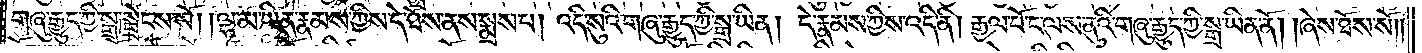གཞུ་རྒྱུད་ཀྱི་སྒྲ་སྦྲེངས་སོ། །ལྷ་མ་ཡིན་རྣམས་ཀྱིས་དེ་ཐོས་ནས་སྨྲས་པ། འདི་སུའི་གཞུ་རྒྱུད་ཀྱི་སྒྲ་ཡིན། དེ་རྣམས་ཀྱིས་འདི་ནི། རྒྱལ་པོ་ང་ལས་ནུའི་གཞུ་རྒྱུད་ཀྱི་སྒྲ་ཡིན་ནོ། །ཞེས་ཐོས་སོ། །
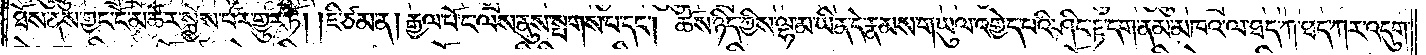ཐོས་ནས་ཀྱང་ངོ་མཚར་སྐྱེས་པར་གྱུར་ཏོ། །ཇི་ཙམ་ན། རྒྱལ་པོ་ང་ལས་ནུས་སྤགས་པ་དང༌། ཆོས་ཉིད་ཀྱིས་ལྷ་མ་ཡིན་དེ་རྣམས་གཡུལ་འགྱེད་པའི་ཤིང་རྟ་དག་ནམ་མཁའ་ལ་ཐད་ཀ་ཐད་ཀར་འདུག་
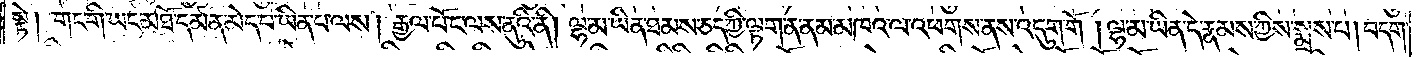སྟེ། གང་གི་ཡང་མཐོ་དམན་མེད་པ་ཡིན་པ་ལས། རྒྱལ་པོ་ང་ལས་ནུའི་ནི། ལྷ་མ་ཡིན་ཐམས་ཅད་ཀྱི་ལྟག་ན་ནམ་མཁའ་ལ་འཕགས་ནས་འདུག་གོ །ལྷ་མ་ཡིན་དེ་རྣམས་ཀྱིས་སྨྲས་པ། བདག་
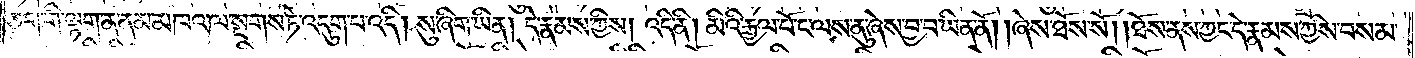ཅག་གི་ལྟག་ན་ནམ་མཁའ་ལ་སྤགས་ཏེ་འདུག་པ་འདི། སུ་ཞིག་ཡིན། དེ་རྣམས་ཀྱིས། འདི་ནི། མིའི་རྒྱལ་པོ་ང་ལས་ནུ་ཞེས་བྱ་བ་ཡིན་ནོ། །ཞེས་ཐོས་སོ། །ཐོས་ནས་ཀྱང་དེ་རྣམས་ཀྱིས་བསམ་
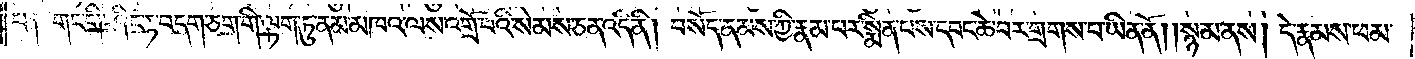པ། གང་གི་ཤིང་རྟ་བདག་ཅག་གི་ལྟག་ཏུ་ནམ་མཁའ་ལས་འགྲོ་བའི་སེམས་ཅན་འདི་ནི། བསོད་ནམས་ཀྱི་རྣམ་པར་སྨིན་པས་དབང་ཆེ་བར་གྲགས་པ་ཡིན་ནོ། །སྙམ་ནས། དེ་རྣམས་ཕམ་
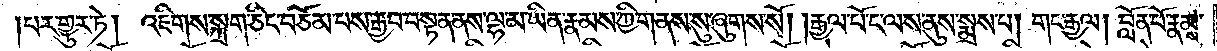པར་གྱུར་ཏེ། འཇིགས་སྐྲག་ཅིང་བཅོམ་པས་རྒྱབ་བསྟན་ནས་ལྷ་མ་ཡིན་རྣམས་ཀྱི་གནས་སུ་ཞུགས་སོ། །རྒྱལ་པོ་ང་ལས་ནུས་སྨྲས་པ། གང་རྒྱལ། བློན་པོ་རྣམས་
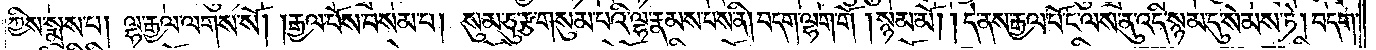ཀྱིས་སྨྲས་པ། ལྷ་རྒྱལ་ལགས་སོ། །རྒྱལ་པོས་བསམ་པ། སུམ་ཅུ་རྩ་གསུམ་པའི་ལྷ་རྣམས་པས་ནི། བདག་ལྷག་གོ །སྙམ་མོ། །དེ་ནས་རྒྱལ་པོ་ང་ལས་ནུ་འདི་སྙམ་དུ་སེམས་ཏེ། བདག་
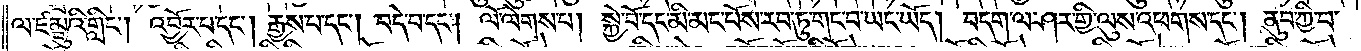ལ་ཛམྦུའི་གླིང༌། འབྱོར་པ་དང༌། རྒྱས་པ་དང༌། བདེ་བ་དང༌། ལོ་ལེགས་པ། སྐྱེ་བོ་དང་མི་མང་པོས་རབ་ཏུ་གང་བ་ཡང་ཡོད། བདག་ལ་ཤར་གྱི་ལུས་འཕགས་དང༌། ནུབ་ཀྱི་བ་
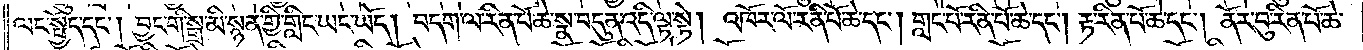ལང་སྤྱོད་དང༌། བྱང་གི་སྒྲ་མི་སྙན་གྱི་གླིང་ཡང་ཡོད། བདག་ལ་རིན་པོ་ཆེ་སྣ་བདུན་འདི་ལྟ་སྟེ། འཁོར་ལོ་རིན་པོ་ཆེ་དང༌། གླང་པོ་རིན་པོ་ཆེ་དང༌། རྟ་རིན་པོ་ཆེ་དང༌། ནོར་བུ་རིན་པོ་ཆེ་
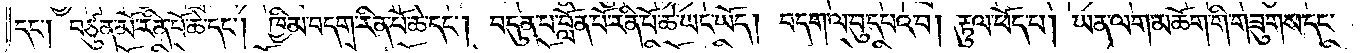དང༌། བཙུན་མོ་རིན་པོ་ཆེ་དང༌། ཁྱིམ་བདག་རིན་པོ་ཆེ་དང༌། བདུན་པ་བློན་པོ་རིན་པོ་ཆེ་ཡང་ཡོད། བདག་ལ་བུ་དཔའ་བ། རྟུལ་ཕོད་པ། ཡན་ལག་མཆོག་གི་གཟུགས་དང་
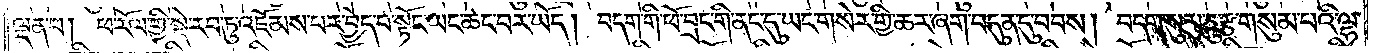ལྡན་པ། ཕ་རོལ་གྱི་སྡེ་རབ་ཏུ་འཇོམས་པར་བྱེད་པ་སྟོང་ཡང་ཆང་བར་ཡོད། བདག་གི་ཕོ་བྲང་གི་ནང་དུ་ཡང་གསེར་གྱི་ཆར་ཞག་བདུན་དུ་བབས། བདག་སུམ་ཅུ་རྩ་གསུམ་པའི་ལྷ་
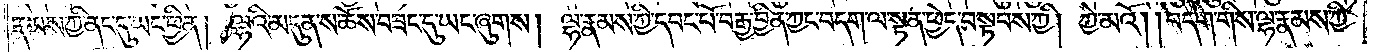རྣམས་ཀྱི་ནང་དུ་ཡང་ཕྱིན། ལྷའི་མདུན་ས་ཆོས་བཟང་དུ་ཡང་ཞུགས། ལྷ་རྣམས་ཀྱི་དབང་པོ་བརྒྱ་བྱིན་ཀྱང་བདག་ལ་སྟན་ཕྱེད་བསྟབས་ཀྱི། ཀྱེ་མའོ། །བདག་གིས་ལྷ་རྣམས་ཀྱི་
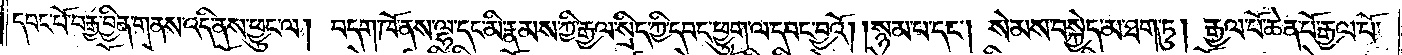དབང་པོ་བརྒྱ་བྱིན་གནས་འདི་ནས་ཕྱུང་ལ། བདག་ཁོ་ནས་ལྷ་དང་མི་རྣམས་ཀྱི་རྒྱལ་སྲིད་ཀྱི་དབང་ཕྱུག་ལ་དབང་བྱའོ། །སྙམ་པ་དང༌། སེམས་བསྐྱེད་མ་ཐག་ཏུ། རྒྱལ་པོ་ཆེན་པོ་རྒྱལ་པོ་
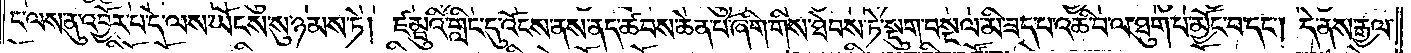ང་ལས་ནུ་འབྱོར་པ་དེ་ལས་ཡོངས་སུ་ཉམས་ཏེ། ཛམྦུའི་གླིང་དུ་འོངས་ནས་ནད་ཚབས་ཆེན་པོ་ཞིག་གིས་ཐེབས་ཏེ་སྡུག་བསྔལ་མི་ཟད་པ་འཆི་བ་ལ་ཐུག་པ་མྱོང་བ་དང༌། དེ་ནས་རྒྱལ་
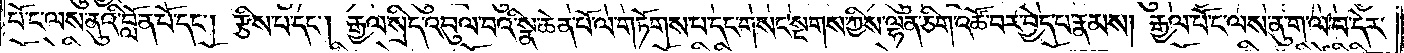པོ་ང་ལས་ནུའི་བློན་པོ་དང༌། རྩིས་པ་དང༌། རྒྱལ་སྲིད་འབུལ་བའི་སྣ་ཆེན་པོ་ལ་གཏོགས་པ་དང་གསང་སྔགས་ཀྱིས་ལྷན་ཅིག་འཚོ་བར་བྱེད་པ་རྣམས། རྒྱལ་པོ་ང་ལས་ནུ་ག་ལ་བ་དེར་
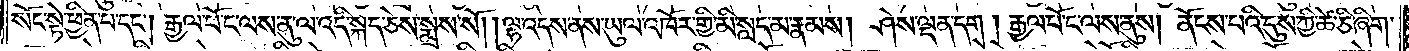སོང་སྟེ་ཕྱིན་པ་དང༌། རྒྱལ་པོ་ང་ལས་ནུ་ལ་འདི་སྐད་ཅེས་སྨྲས་སོ། །ལྷ་འདས་ནས་ཡུལ་འཁོར་གྱི་མི་སླད་མ་རྣམས། ཤེས་ལྡན་དག །རྒྱལ་པོ་ང་ལས་ནུས། ནོངས་པའི་དུས་ཀྱི་ཚེ་ཅི་ཞིག་
